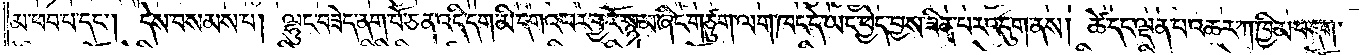མ་ཕབ་པ་དང༌། དེས་བསམས་པ། ལྷུང་བཟེད་ནག་པོ་ཅན་འདི་དག་མི་དགའ་བར་བྱའོ་སྙམ་ཞིང་གཙུག་ལག་ཁང་དེ་ཡང་ཕྱེད་བྱས་ཟིན་པར་འདུག་ནས། ཚེ་དང་ལྡན་པ་འཆར་ཀ་ཁྱིམ་བདག་
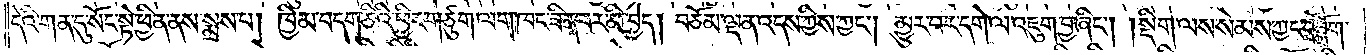དེའི་གན་དུ་སོང་སྟེ་ཕྱིན་ནས་སྨྲས་པ། ཁྱིམ་བདག་ཅིའི་ཕྱིར་གཙུག་ལག་ཁང་ཟིན་པར་མི་བྱེད། བཅོམ་ལྡན་འདས་ཀྱིས་ཀྱང༌། མྱུར་བར་དགེ་ལ་འཇུག་བྱ་ཞིང༌། །སྡིག་ལས་སེམས་ཀྱང་བཟློག་
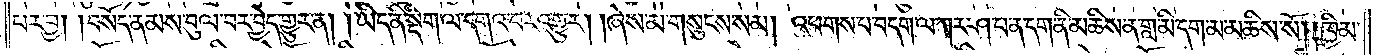པར་བྱ། །བསོད་ནམས་བུལ་བར་བྱེད་གྱུར་ན། །ཡིད་ནི་སྡིག་ལ་དགའ་བར་འགྱུར། །ཞེས་མ་གསུངས་སམ། འཕགས་པ་བདག་ལ་ཀར་ཤ་པ་ན་དག་ནི་མཆིས་ན་གླ་མི་དག་མ་མཆིས་སོ། །ཁྱིམ་
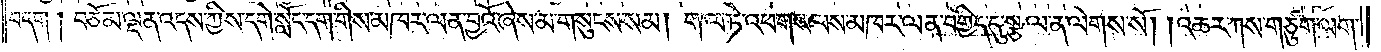བདག༑ བཅོམ་ལྡན་འདས་ཀྱིས་དགེ་སློང་དག་གིས་མཁར་ལན་བྱའོ་ཞེས་མ་གསུངས་སམ། གལ་ཏེ་འཕགས་པས་མཁར་ལན་བགྱིད་དུ་སྩལ་ན་ལེགས་སོ། །འཆར་ཀས་གཙུག་ལག་
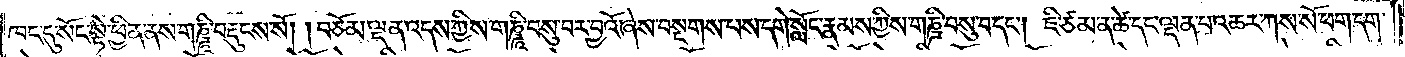ཁང་དུ་སྟོང་སྟེ་ཕྱིན་ནས་གཎྜཱི་བརྡུངས་སོ། །བཅོམ་ལྡན་འདས་ཀྱིས་གཎྜཱི་བསུ་བར་བྱའོ་ཞེས་སྔགས་པས་དགེ་སློང་རྣམས་ཀྱིས་གཎྜཱི་བསུ་བ་དང༌། ཇི་ཙམ་ན་ཚེ་དང་ལྡན་པ་འཆར་ཀས་སོ་ཕག་དག་
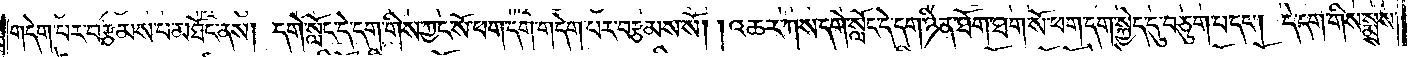གདེག་པར་བརྩམས་པ་མཐོང་ནས། དགེ་སློང་དེ་དག་གིས་ཀྱང་སོ་ཕག་དག་གདེག་པར་བརྩམས་སོ། །འཆར་ཀས་དགེ་སློང་དེ་དག་ཉིན་ཐོག་ཐག་སོ་ཕག་དག་སྐྱེད་དུ་བཅུག་པ་དང༌། དེ་དག་གིས་སྨྲས་
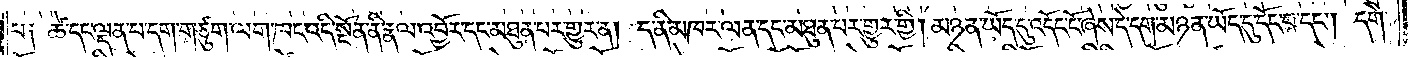པ༑ ཚེ་དང་ལྡན་པ་དག་གཙུག་ལག་ཁང་འདི་སྔོན་ནི་རྣལ་འབྱོར་དང་མཐུན་པར་གྱུར་ན། ད་ནི་མཁར་ལན་དང་མཐུན་པར་གྱུར་གྱི། མཉན་ཡོད་དུ་འདོང་ངོ་ཞེས་དེ་དག་མཉན་ཡོད་དུ་དོང་བ་དང༌། དགེ་
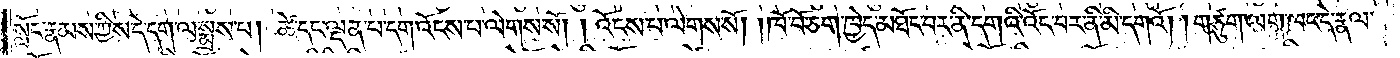སློང་རྣམས་ཀྱིས་དེ་དག་ལ་སྨྲས་པ། ཚེ་དང་ལྡན་པ་དག་འོངས་པ་ལེགས་སོ། །འོངས་པ་ལེགས་སོ། །ཁོ་བོ་ཅག་ཁྱེད་མཐོང་བར་ནི་དགའི་འོང་བར་ནི་མི་དགའོ། །གཙུག་ལག་ཁང་དེ་རྣལ་
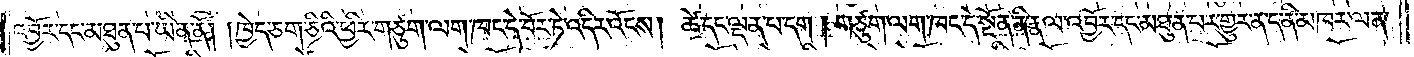འབྱོར་དང་མཐུན་པ་ཡིན་ནོ། །ཁྱེད་ཅག་ཅིའི་ཕྱིར་གཙུག་ལག་ཁང་དེ་བོར་ཏེ་འདིར་འོངས། ཚེ་དང་ལྡན་པ་དག །གཙུག་ལག་ཁང་དེ་སྔོན་ནི་རྣལ་འབྱོར་དང་མཐུན་པར་གྱུར་ན་ད་ནི་མཁར་ལན་
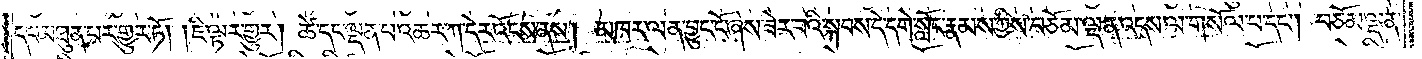དང་མཐུན་པར་གྱུར་ཏོ། །ཇི་ལྟར་གྱུར། ཚེ་དང་ལྡན་པ་འཆར་ཀ་དེར་འོངས་ནས། མཁར་ལན་བྱུང་ངོ་ཞེས་ཟེར་བའི་སྐབས་དེ་དགེ་སློང་རྣམས་ཀྱིས་བཅོམ་ལྡན་འདས་ལ་གསོལ་པ་དང༌། བཅོམ་ལྡན་
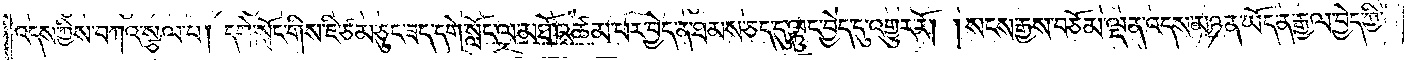འདས་ཀྱིས་བཀའ་སྩལ་པ། དགེ་སློང་གིས་ཇི་ཙམ་ཅུང་ཟད་དགེ་སློང་ལ་མཐོ་འཚམ་པར་བྱེད་ན་ཐམས་ཅད་དུ་ལྟུང་བྱེད་དུ་འགྱུར་རོ། །སངས་རྒྱས་བཅོམ་ལྡན་འདས་མཉན་ཡོད་ན་རྒྱལ་བྱེད་ཀྱི་
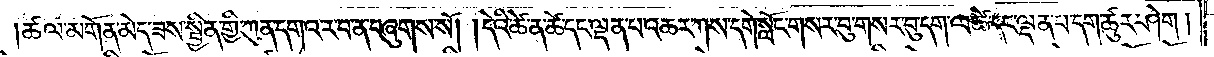ཚལ་མགོན་མེད་ཟས་སྦྱིན་གྱི་ཀུན་དགའ་ར་བ་ན་བཞུགས་སོ། །དེའི་ཚེ་ན་ཚེ་དང་ལྡན་པ་འཆར་ཀས་དགེ་སློང་གསར་བུ་གསར་བུ་དག་ལ་ཚེ་དང་ལྡན་པ་དག་ཚུར་ཤེག །
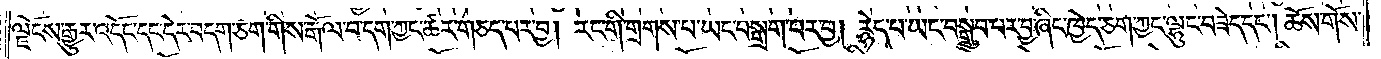ལྗོངས་རྒྱུར་འདོང་དང་དེར་བདག་ཅག་གིས་རྒོལ་བ་དག་ཀྱང་ཆར་གཅད་པར་བྱ། རང་གི་གྲགས་པ་ཡང་བསྒྲག་པར་བྱ། རྙེད་པ་ཡང་བསྒྲུབ་པར་བྱ་ཞིང་ཁྱེད་ཅག་ཀྱང་ལྷུང་བཟེད་དང༌། ཆོས་གོས་
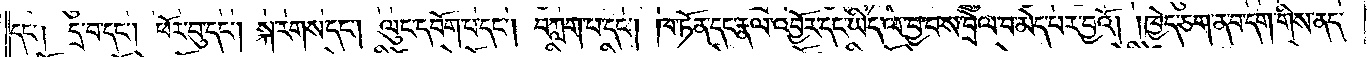དང༌། དྲ་བ་དང༌། ཕོར་བུ་དང༌། སྐ་རགས་དང༌། ལུང་དབོག་པ་དང༌། བཀླག་པ་དང༌། ཁ་ཏོན་དང་རྣལ་འབྱོར་དང་ཡིད་ལ་བྱ་བས་བྲེལ་བ་མེད་པར་བྱའོ། །ཁྱེད་ཅག་ན་བ་དག་གིས་ནད་
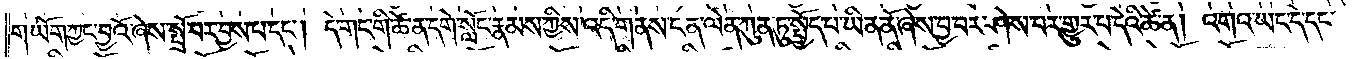གཡོག་ཀྱང་བྱའོ་ཞེས་སྤྲོ་བར་བྱས་པ་དང༌། དེ་གང་གི་ཚེ་ན་དགེ་སློང་རྣམས་ཀྱིས་འདི་གནས་ངན་ལེན་ཀུན་ཏུ་སྤྱོད་པ་ཡིན་ནོ་ཞེས་བྱ་བར་ཤེས་པར་གྱུར་པ་དེའི་ཚེ་ན། འགའ་ཡང་དེ་དང་
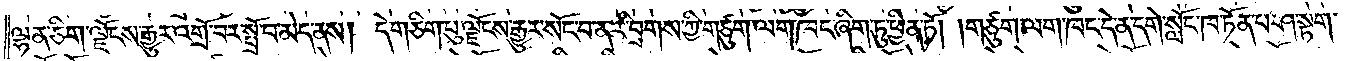ལྷན་ཅིག་ལྗོངས་རྒྱུར་འགྲོ་བར་སྤྲོ་བ་མེད་ནས། དེ་གཅིག་པུ་ལྗོངས་རྒྱུར་སོང་བ་ན་རི་བྲགས་ཀྱི་གཙུག་ལག་ཁང་ཞིག་ཏུ་ཕྱིན་ཏོ། །གཙུག་ལག་ཁང་དེ་ན་དགེ་སློང་ཁ་ཏོན་པ་ཤ་སྟག་
